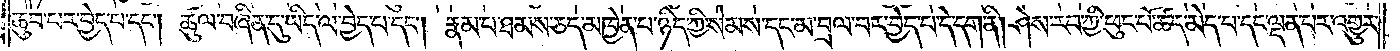ཆུབ་པར་བྱེད་པ་དང༌། ཚུལ་བཞིན་དུ་ཡིད་ལ་བྱེད་པ་དང༌། རྣམ་པ་ཐམས་ཅད་མཁྱེན་པ་ཉིད་ཀྱི་སེམས་དང་མ་བྲལ་བར་བྱེད་པ་དེ་དག་ནི། ཤེས་རབ་ཀྱི་ཕུང་པོ་ཚད་མེད་པ་དང་ལྡན་པར་འགྱུར་
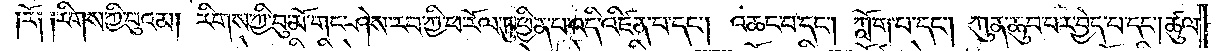རོ༑ ༑རིགས་ཀྱི་བུའམ། རིགས་ཀྱི་བུ་མོ་གང་ཤེས་རབ་ཀྱི་ཕ་རོལ་ཏུ་ཕྱིན་པ་འདི་འཛིན་པ་དང༌། འཆང་བ་དང༌། ཀློག་པ་དང༌། ཀུན་ཆུབ་པར་བྱེད་པ་དང༌། ཚུལ་
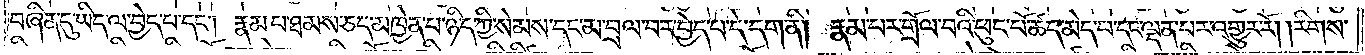བཞིན་དུ་ཡིད་ལ་བྱེད་པ་དང༌། རྣམ་པ་ཐམས་ཅད་མཁྱེན་པ་ཉིད་ཀྱི་སེམས་དང་མ་བྲལ་བར་བྱེད་པ་དེ་དག་ནི། རྣམ་པར་གྲོལ་བའི་ཕུང་པོ་ཚད་མེད་པ་དང་ལྡན་པར་འགྱུར་རོ། །རིགས་
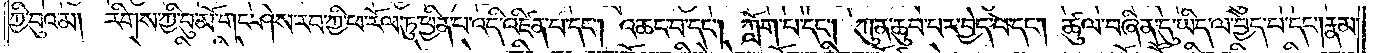ཀྱི་བུའམ། རིགས་ཀྱི་བུ་མོ་གང་ཤེས་རབ་ཀྱི་ཕ་རོལ་ཏུ་ཕྱིན་པ་འདི་འཛིན་པ་དང༌། འཆང་བ་དང༌། ཀློག་པ་དང༌། ཀུན་ཆུབ་པར་བྱེད་པ་དང༌། ཚུལ་བཞིན་དུ་ཡིད་ལ་བྱེད་པ་དང༌། རྣམ་
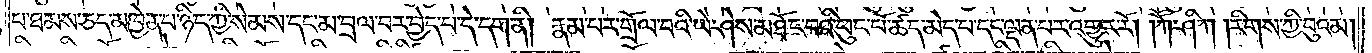པ་ཐམས་ཅད་མཁྱེན་པ་ཉིད་ཀྱི་སེམས་དང་མ་བྲལ་བར་བྱེད་པ་དེ་དག་ནི། རྣམ་པར་གྲོལ་བའི་ཡེ་ཤེས་མཐོང་བའི་ཕུང་པོ་ཚད་མེད་པ་དང་ལྡན་པར་འགྱུར་རོ། །ཀཽ་ཤི་ཀ །རིགས་ཀྱི་བུའམ་
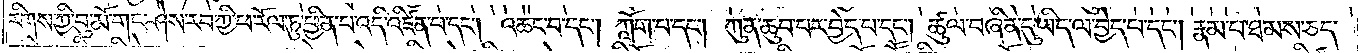རིགས་ཀྱི་བུ་མོ་གང་ཤེས་རབ་ཀྱི་ཕ་རོལ་ཏུ་ཕྱིན་པ་འདི་འཛིན་པ་དང༌། འཆང་བ་དང༌། ཀློག་པ་དང༌། ཀུན་ཆུབ་པར་བྱེད་པ་དང༌། ཚུལ་བཞིན་དུ་ཡིད་ལ་བྱེད་པ་དང༌། རྣམ་པ་ཐམས་ཅད་
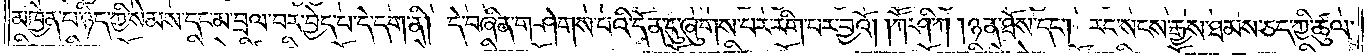མཁྱེན་པ་ཉིད་ཀྱི་སེམས་དང་མ་བྲལ་བར་བྱེད་པ་དེ་དག་ནི། དེ་བཞིན་གཤེགས་པའི་དོན་དུ་ཞུགས་པར་རིག་པར་བྱའོ། །ཀཽ་ཤི་ཀ །ཉན་ཐོས་དང༌། རང་སངས་རྒྱས་ཐམས་ཅད་ཀྱི་ཚུལ་
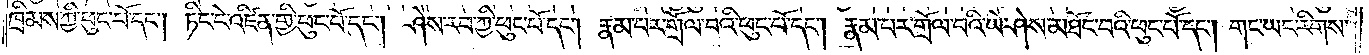ཁྲིམས་ཀྱི་ཕུང་པོ་དང༌། ཏིང་ངེ་འཛིན་གྱི་ཕུང་པོ་དང༌། ཤེས་རབ་ཀྱི་ཕུང་པོ་དང༌། རྣམ་པར་གྲོལ་བའི་ཕུང་པོ་དང༌། རྣམ་པར་གྲོལ་བའི་ཡེ་ཤེས་མཐོང་བའི་ཕུང་པོ་དང༌། གང་ཡང་རིགས་
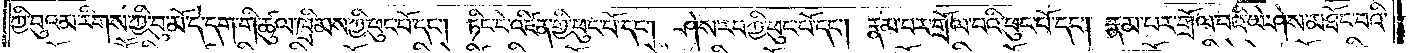ཀྱི་བུའམ་རིགས་ཀྱི་བུ་མོ་དེ་དག་གི་ཚུལ་ཁྲིམས་ཀྱི་ཕུང་པོ་དང༌། ཏིང་ངེ་འཛིན་གྱི་ཕུང་པོ་དང༌། ཤེས་རབ་ཀྱི་ཕུང་པོ་དང༌། རྣམ་པར་གྲོལ་བའི་ཕུང་པོ་དང༌། རྣམ་པར་གྲོལ་བའི་ཡེ་ཤེས་མཐོང་བའི་
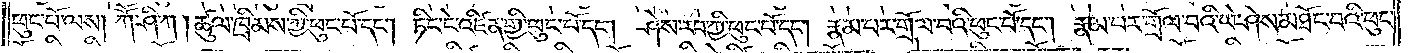ཕུང་པོ་ལས། ཀཽ་ཤི་ཀ །ཚུལ་ཁྲིམས་ཀྱི་ཕུང་པོ་དང༌། ཏིང་ངེ་འཛིན་གྱི་ཕུང་པོ་དང༌། ཤེས་རབ་ཀྱི་ཕུང་པོ་དང༌། རྣམ་པར་གྲོལ་བའི་ཕུང་པོ་དང༌། རྣམ་པར་གྲོལ་བའི་ཡེ་ཤེས་མཐོང་བའི་ཕུང་
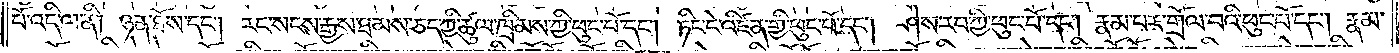པོ་འདི་ལ་ནི། ཉན་ཐོས་དང༌། རང་སངས་རྒྱས་ཐམས་ཅད་ཀྱི་ཚུལ་ཁྲིམས་ཀྱི་ཕུང་པོ་དང༌། ཏིང་ངེ་འཛིན་གྱི་ཕུང་པོ་དང༌། ཤེས་རབ་ཀྱི་ཕུང་པོ་དང༌། རྣམ་པར་གྲོལ་བའི་ཕུང་པོ་དང༌། རྣམ་
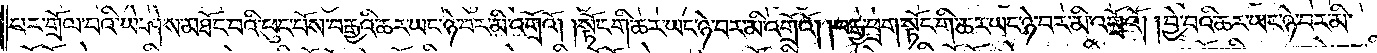པར་གྲོལ་བའི་ཡེ་ཤེས་མཐོང་བའི་ཕུང་པོས་བརྒྱའི་ཆར་ཡང་ཉེ་བར་མི་འགྲོའོ། །སྟོང་གི་ཆར་ཡང་ཉེ་བར་མི་འགྲོའོ། །བརྒྱ་ཕྲག་སྟོང་གི་ཆར་ཡང་ཉེ་བར་མི་འགྲོའོ། །བྱེ་བའི་ཆར་ཡང་ཉེ་བར་མི་
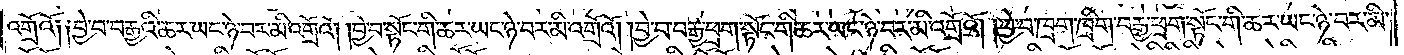འགྲོའོ། །བྱེ་བ་བརྒྱའི་ཆར་ཡང་ཉེ་བར་མི་འགྲོའོ། བྱེ་བ་སྟོང་གི་ཆར་ཡང་ཉེ་བར་མི་འགྲོའོ། །བྱེ་བ་བརྒྱ་ཕྲག་སྟོང་གི་ཆར་ཡང་ཉེ་བར་མི་འགྲོའོ། །བྱེ་བ་ཁྲག་ཁྲིག་བརྒྱ་ཕྲག་སྟོང་གི་ཆར་ཡང་ཉེ་བར་མི་
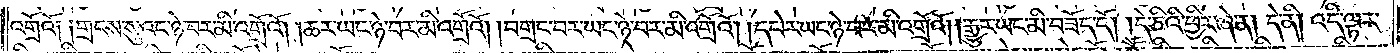འགྲོའོ། །གྲངས་སུའང་ཉེ་བར་མི་འགྲོའོ། །ཆར་ཡང་ཉེ་བར་མི་འགྲོའོ། །བགྲང་བར་ཡང་ཉེ་བར་མི་འགྲོའོ། །དཔེར་ཡང་ཉེ་བར་མི་འགྲོའོ། །རྒྱུར་ཡང་མི་བཟོད་དོ། །དེ་ཅིའི་ཕྱིར་ཞེ་ན། དེ་ནི། འདི་ལྟར་
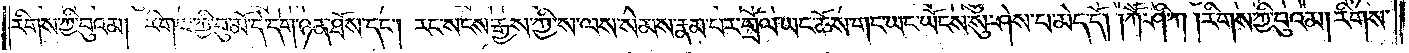རིགས་ཀྱི་བུའམ། རིགས་ཀྱི་བུ་མོ་དེ་དག་ཉན་ཐོས་དང༌། རང་སངས་རྒྱས་ཀྱིས་ལས། སེམས་རྣམ་པར་གྲོལ་ཡང་ཆོས་གང་ཡང་ཡོངས་སུ་ཤེས་པ་མེད་དོ། །ཀཽ་ཤི་ཀ །རིགས་ཀྱི་བུའམ། རིགས་
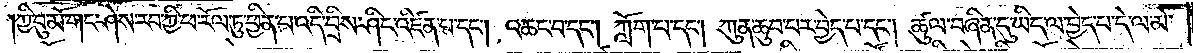ཀྱི་བུ་མོ་གང་ཤེས་རབ་ཀྱི་ཕ་རོལ་ཏུ་ཕྱིན་པ་འདི་བྲིས་ཤིང་འཛིན་པ་དང༌། འཆང་བ་དང༌། ཀློག་པ་དང༌། ཀུན་ཆུབ་པར་བྱེད་པ་དང༌། ཚུལ་བཞིན་དུ་ཡིད་ལ་བྱེད་པ་དེ་ལ་མེ་
